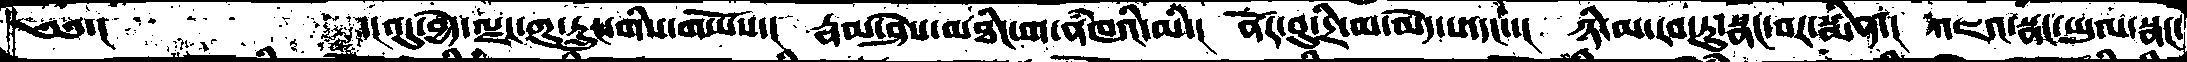༄༅་།       ་།འདུ་བྱེད་ལྗང་གུ་རླུང་གིས་གཡོས་།  རྣམ་ཤེས་མཐིང་ག་ནཾཁའི་མི་།  ནོར་བུ་དྲི་མ་མེད་པ་དང་་།  ཉི་མ་རབ་ཏུ་སྣང་བར་སྨིན་།  འཇའ་སྣང་ཡུལ་སྣང་
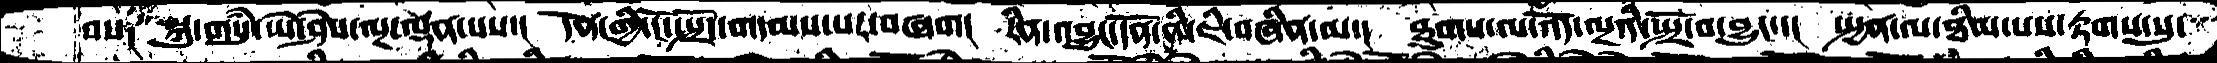བས༑ སྐུ་གསུཾ་ཡེ་ཤེས་ལྔ་ལྡན་པས་།  དོན་གྱི་ངོ་སྤྲོད་གདམས་པར་བཞག།  རིན་འབྱུང་དོན་ནི་ཇི་བཞིན་ལ་།  ཐུགས་ལ་འོད་ལྔའི་སྤྲོ་བ་བྱུང་་།  སྤྱན་ལ་ཐིམ་པས་རྟགས་སུ་
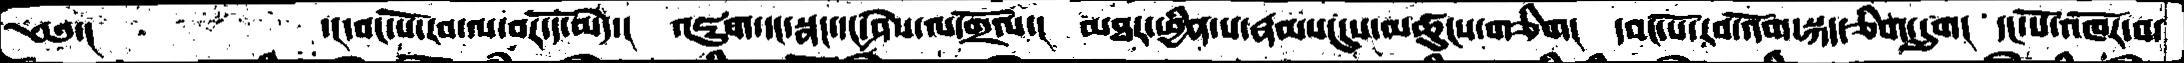༄༅་།      ་།དབང་པོ་རབ་ལ་བར་དོ་མེད་།  འཇུག་དང་སྣང་དང་ཤེས་ལ་གྲོལ་།  མཐར་ཕྱིན་པ་རྣམས་དུས་མཚུངས་གཅིག།  དབང་པོ་རབ་འོག་སྐད་ཅིག་དྲུག།  དང་པོ་འཁོར་བ་
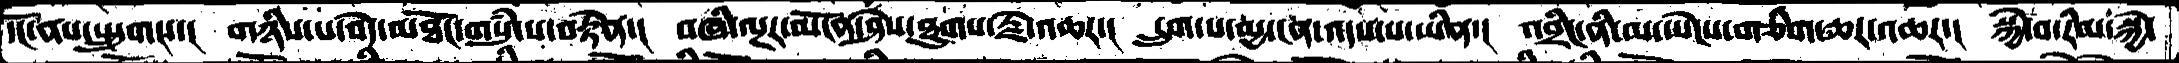དངོ་ནས་སྤྲུགས་།  གཉིས་པ་བདེ་མཐོང་གསུཾ་པ་བརྟེན་།  བཞི་ལྔར་མངོན་ཤེས་ཐུགས་རྗེ་འཆར་།  དྲུག་པ་མྱ་ངན་འདས་པ་ཡིན་།  འབྲིང་ནི་མ་ཡེངས་གཅིག་ཆར་འཆར་།  སྐྱེ་བ་རིམ་སྐྱེ་
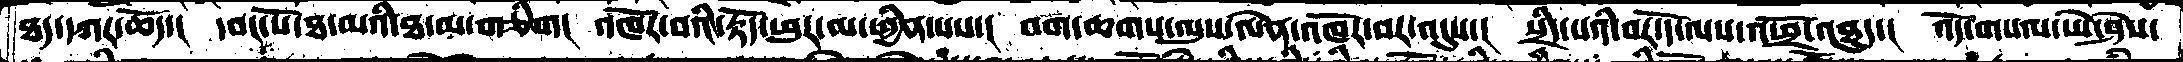ཐད་དཀར་ཆོད་།  དབང་པོ་ཐ་མའི་ཐ་མ་གཅིག།  འཁོར་བའི་རྟོད་ཕུར་མ་ཕྱིན་པས་།  བག་ཆགས་ལུས་ལེན་འཁོར་བར་འདུས་།  སྲིད་པའི་བར་དོ་ལས་འཕྲོ་འཐུད་།  འོད་གསལ་ཡེ་ཤེས་
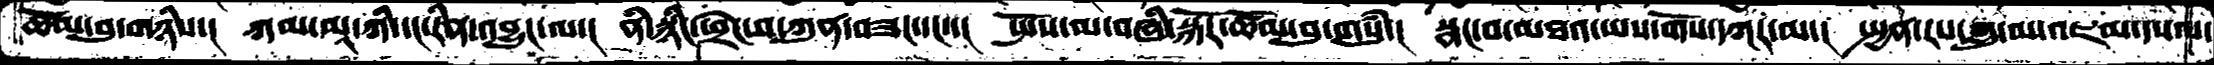ཚོམ་བུ་གཉིས་།  ཀམ་མཱ་ཀི་དང་རིན་འབྱུང་ལ་།  ནི་སྙིང་ཕྲེང་བ་ཀུན་བཟང་དང་་།  སྤོས་མ་བཞི་སྐོར་ཚོམ་བུ་གསུཾ་།  སྣང་བ་མཐའ་ཡས་གོས་དཀར་མ་།  སྤྱན་རས་གླུ་མ་འཇམ་དཔལ་
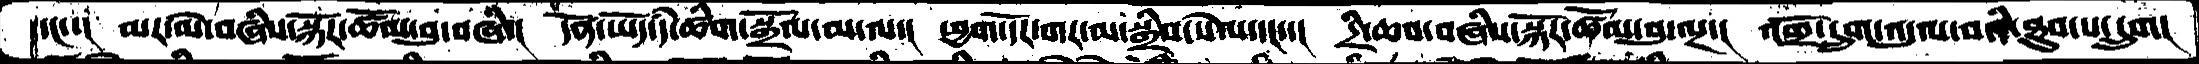དང་་།  མར་མེ་བཞིས་སྐོར་ཚོམ་བུ་བཞི་།  དོན་ཡོད་དཾ་ཚིག་སྒྲོལ་མ་ལ་།  ཕྱག་དོར་གར་མ་སྒྲིབ་སེལ་དང་་།  དྲི་ཆབ་བཞིས་སྐོར་ཚོམ་བུ་ལྔ་།  འགྲོ་དྲུག་འདུལ་བའི་ཐུབ་པ་དྲུག།
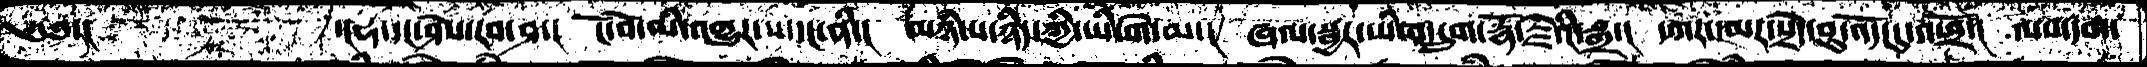༄༅་།        ་།ཧ་དང་ཤེས་རབ་ཤ་།  ངོ་བོ་མི་འགྱུར་ས་དང་ནི་།  མཉཾ་པ་ཉིད་ཀྱི་ཡི་གེ་མ་།  ཞལ་སྦྱར་ཡིག་དྲུག་རྡོ་རྗེའི་སྒྲ་།  དཀར་དམར་སྲེད་བུ་འོད་དུ་འཕྲོ་།  ལས་དག་
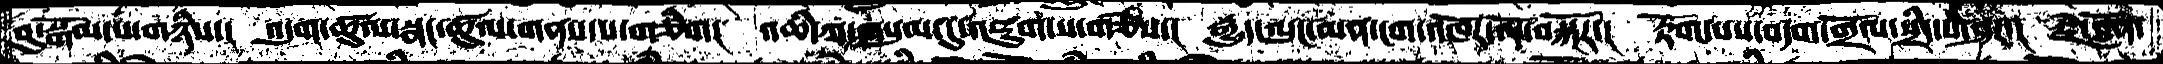བུ་སྒོམ་པ་གཉིས་།  འདུག་ཚུལ་སྣང་ཚུལ་གནས་པ་གཅིག།  འཆི་ཀ་གསུམ་དུ་འཇུག་པ་བཅོཾས་།  རྒྱུད་ལུང་མན་ངག་འཁོར་ལོ་བསྐོར་།  རྟོག་པས་བདག་གྲོལ་སྲིད་པ་ཤར་།  རྗེ་བློན་
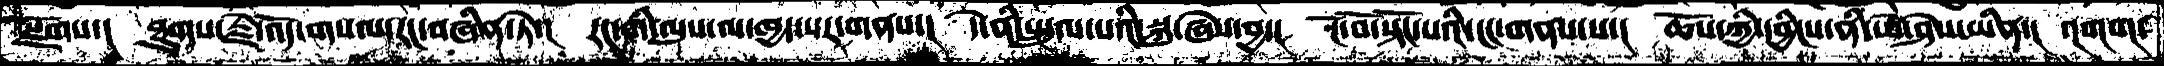སྫོགས་།   ཐུགས་རྗེ་འོད་གསལ་རང་བཞིན་ཏེ་།  རང་གི་ལུས་ལ་ཁྱད་པར་གནས་།  དེ་ནི་སྤྲུལ་པའི་སྐུ་ཞེས་བྱ་།  ངོ་བོ་སྟོང་པའི་ངང་གནས་པ་།  ཆོས་ཀྱི་དབྱིངས་ནི་ཡེ་ཤེས་ཡིན་།  འགག་
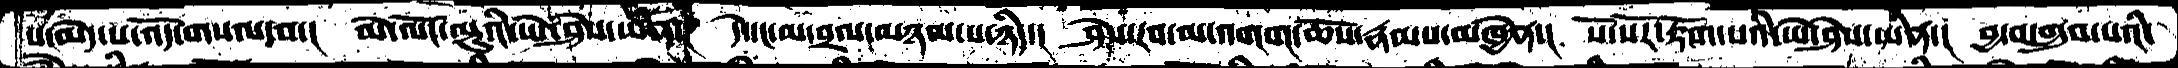པ་མེད་པ་འོད་གསལ་བ་།  མེ་ལོང་ལྟུའི་ཡེ་ཤེས་ཡིན་།  དེ་དང་མ་བྲལ་མཉམ་པ་ཉིད་།  ཤེས་རབ་མ་འགག་ཆོས་རྣམས་མཁྱེན་།  སོ་སོར་རྟོག་པའི་ཡེ་ཤེས་ཡིན་།  བྱ་བ་གྲུབ་པའི་
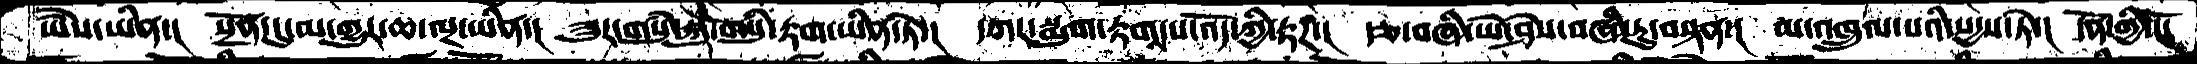ཡཻས་ཡིན་།  སྔོན་དུ་མ་གྱུར་ཆ་ལྔ་ཡིན་།  ཟུར་གསུཾ་སྐུ་གསུཾ་རྟག་ཡིན་ཏེ་།  དཀར་སྨུག་རྟག་པ་འོད་ཀྱི་རྟཌ་།  རྩ་བཞི་ཡེ་ཤེས་བཞི་རུ་བསྟན་།  མ་འཁྲུལ་པའི་སདྱས་ཏེ་།  དོན་གྱི་ངོ་
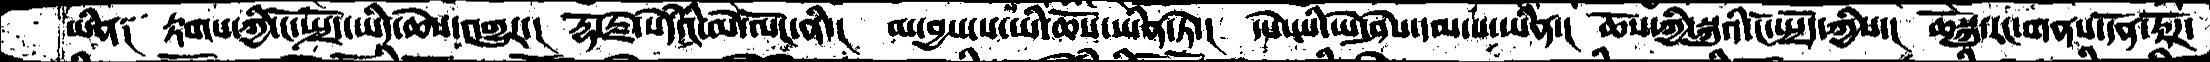ཡིན༑  རྟགས་ཀྱི་ངོ་སྤྲོད་ཡིད་ཆེས་འགྱུར་།  རྡོ་རྗེ་སེདཾའི་མེ་ལོང་ནི་།  མ་བྱས་པ་ཡི་ཆོས་ཡིན་ཏེ་།  དཔེ་ཡི་ཡེ་ཤེས་དམ་པ་ཡིན།  ཆོས་ཀྱི་སྐུའི་ངོ་སྤྲོད་ཀྱིས་།  ཆོསྐུ་རང་གནས་དོན་རྟོཌ་
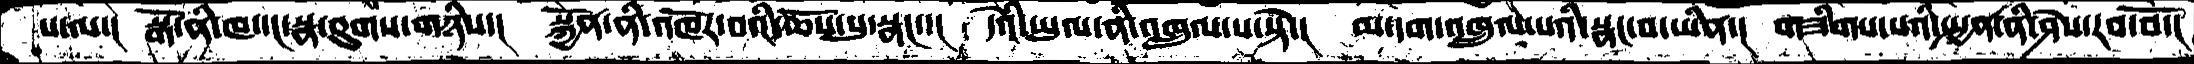པ་ལ་།  སྒོ་ནི་ཁ་དང་སྣ་བུགས་གཉིས་།  སྐྱོན་ནི་འཁོར་བའི་ཆོས་སུ་སྣང་་།  དེའི་ཡུལ་ནི་འཁྲུལ་པ་སྟེ་།  མ་དག་འཁྲུལ་པའི་སྣང་བ་ཡིན་།  གཟིགས་པའི་སྤྱན་ནི་ཤེས་རབ་བོ་།
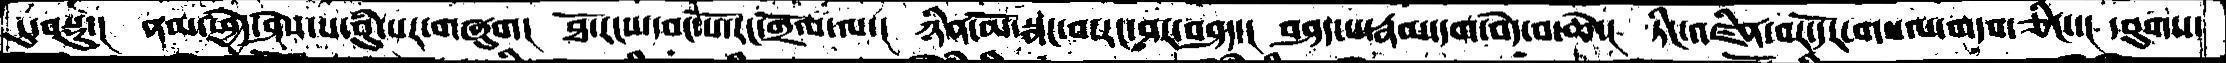དུ་བསྡུ་།  ནམ་ཕྱེད་ཤེས་པ་བུཾ་པར་གཞུག།  ཐོ་རངས་དབང་པོ་རང་གྲོལ་ལ་།  ཉིན་མོ་སྣང་བ་རང་ཤར་བཤད་།  བཤད་པ་རྣམ་དག་བདེ་བ་ཆེ་།  ཏིང་འཛིན་བར་དོར་གསལ་གདབ་ཅིང་་།  དབུགས་
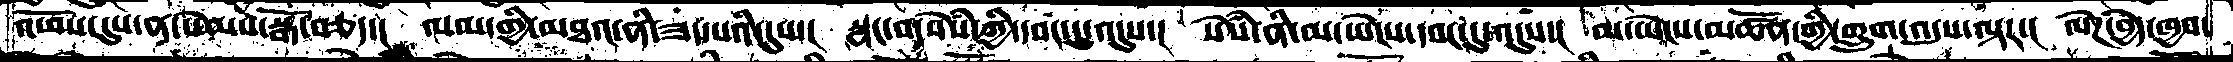འཕོས་དུས་ན་སེམས་སྒོ་བཅད་།  ལམ་གྱི་མཐའ་ནི་ཟད་པའི་དུས་།  སྣང་བ་སེསཾ་ཀྱི་དབང་དུ་འདུས་།  སེསཾ་ནི་མ་ཡེངས་དབང་དུ་འདུས་།  མ་ཡེངས་མཚོན་གྱི་གྲུག་འདུས་ལྟར་།  ལེཌ་བྱེད་ཁྱབ་
